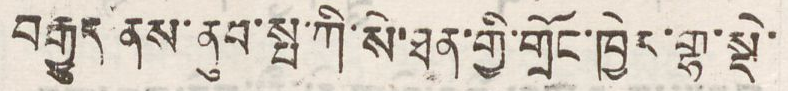བརྒྱུད ནས་ནུབ་སྤ་ཀི་སི་ཐན་གྱི་གྲོང་ཁྱེར་གྷ་སྡེ་
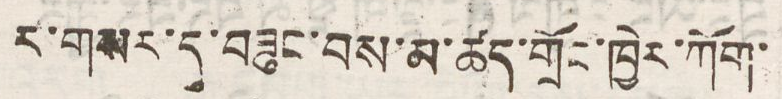ར་གསར་དུ་བཟུང་བས་མ་ཚད་གྲོང་ཁྱེར་ཀོག་
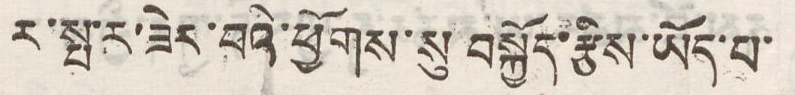ར་སྤ་ར་ཟེར་བའི་ཕྱོགས་སུ་བསྐྱོད་རྩིས་ཡོད་པ་
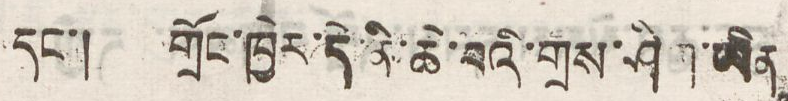དང་། གྲོང་ཁྱེར་དེ་ནི་ཆེ་བའི་གྲས་ཤིག་ཡིན
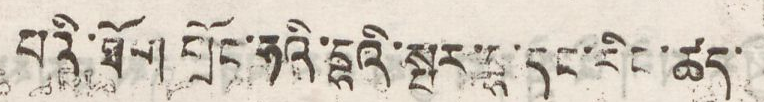པའི་ཐོག གྲོང་ཧའི་དྷའི་སྤར་བྷ་དང་རིང་ཚད་
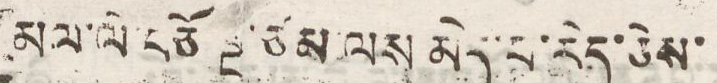མལ་ལེ་བཅོ ལྔ་ཙམ་ལས མེད་པ་རེད་ཅེས་
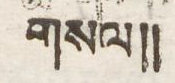གསལ།།
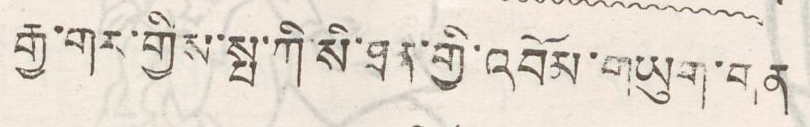རྒྱ་གར་གྱིས་སྤ་ཀི་སི་ཐན་གྱི་འབོམ་གཡུག་གན་
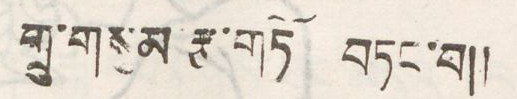གྲུ་གསུམ རྩ་གཏོར་བཏང་བ།།
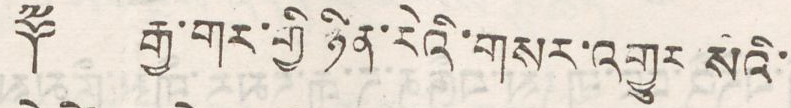༈ རྒྱ་གར་གྱི་ཉིན་རེའི་གསར་འགྱུར་སའི་
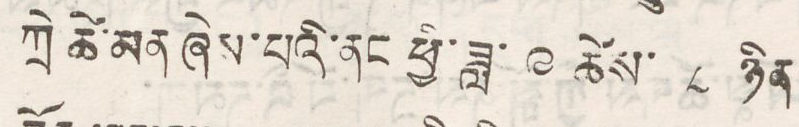ཀྲེ ཚེ་མན ཞེས་པའི་ནང ཕྱི་ཟླ་ ༩ ཚེས་ ༨ ཉིན
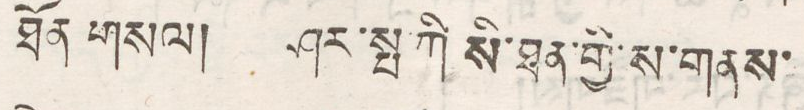ཐོན གསལ། ཤར་སྤ་ཀི་སི་ཐན་གྱི་ས་གནས་
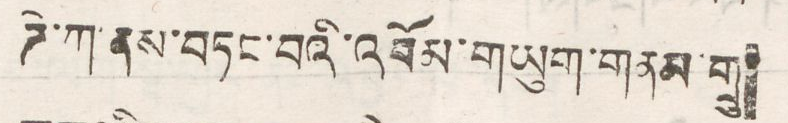ཌེ་ཀ་ནས་བཏང་བའི་འབོམ་གཡུག་གནམ་གྲུ་
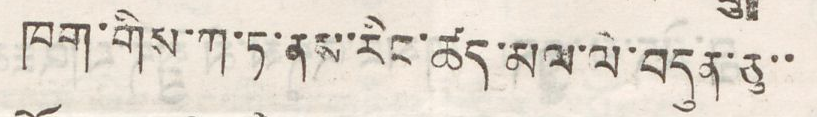ཁག་གིས་ཀ་ཏ་ནས་རིང་ཚད་མལ་ལེ་བདུན་ཅུ་་
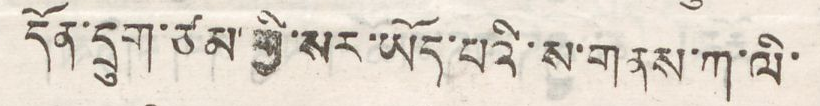དོན་དྲུག་ཙམ་གྱི་སར་ཡོད་པའི་ས་གནས་ཀ་ལི་
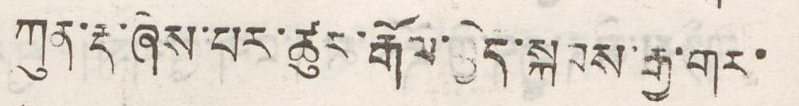ཀུན་རྡ་ཞེས་པར་ཚུར་རྒོལ་བྱེད་སྐབས་རྒྱ་གར་
